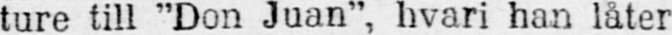ture till “Don Juan“, hvari han låter
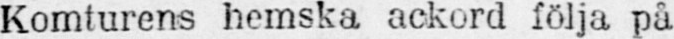Komturens hemska ackord följa på
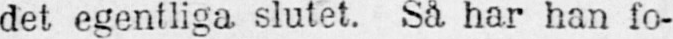det egentliga slutet. Så har han fo-
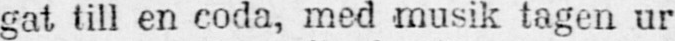gat till en coda, med musik tagen ur
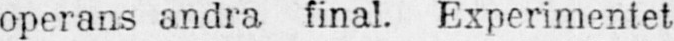operans andra final. Experimentet
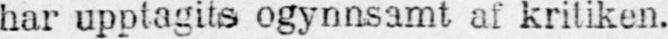har upptagits ogynnsamt af kritiken.
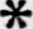*
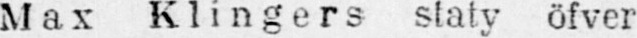Max Klingers staty öfver
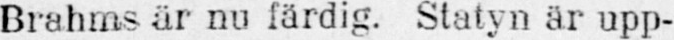Brahms är nu färdig. Statyn är upp-
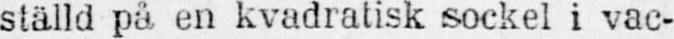ställd pä en kvadratisk sockel i vac-
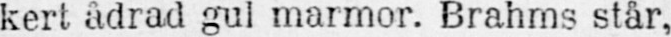kert ådrad gul marmor. Brahms står,
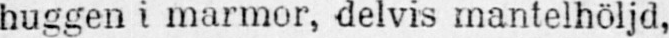huggen i marmor, delvis mantelhöljd,
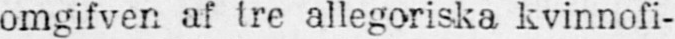omgifven af tre allegoriska kvinnofi-
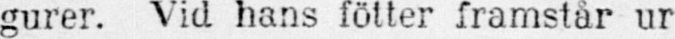gurer. Vid hans fötter framstår ur
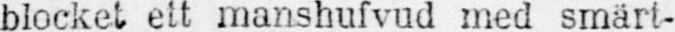blocket ett manshufvud med smärt-
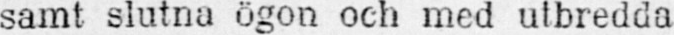samt slutna ögon och med utbredda
